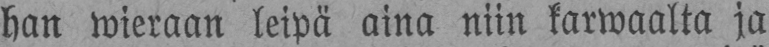han wieraan leipä aina niin karwaalta ja
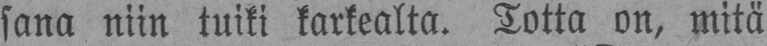sana niin tuiki karkealta. Totta on, mitä
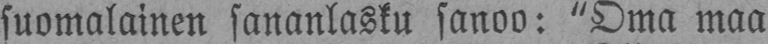suomalainen sananlasku sanoo: "Oma maa
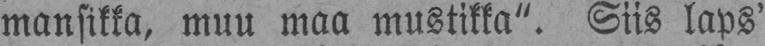mansikka, muu maa mustikka". Siis laps'
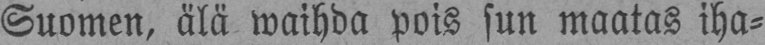Suomen, älä waihda pois sun maatas iha-
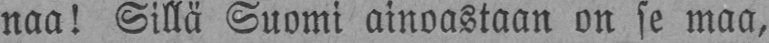naa! Sillä Suomi ainoastaan on se maa,
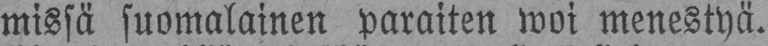missä suomalainen paraiten woi menestyä.
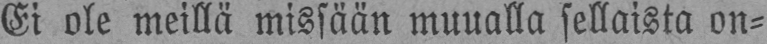Ei ole meillä missään muualla sellaista on-
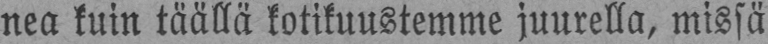nea kuin täällä kotikuustemme juurella, missä
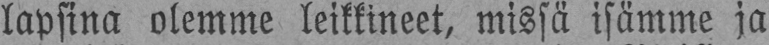lapsina olemme leikkineet, missä isämme ja
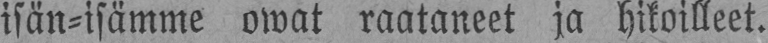isän-isämme owat raataneet ja hikoilleet.
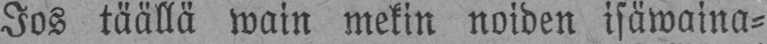Jos täällä wain mekin noiden isäwaina-
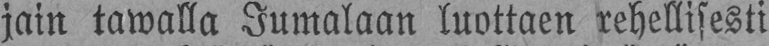jain tawalla Jumalaan luottaen rehellisesti
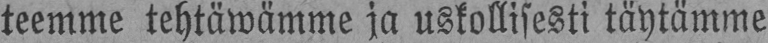teemme tehtäwämme ja uskollisesti täytämme
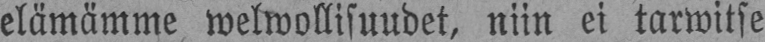elämämme welwollisuudet, niin ei tarwitse
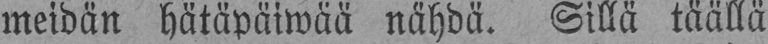meidän hätäpäiwää nähdä. Sillä täällä
